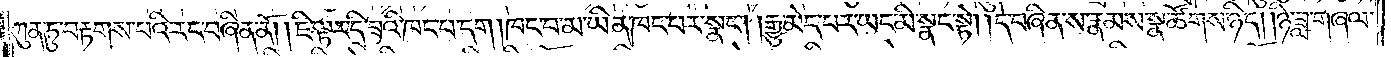ཀུན་ཏུ་བརྟགས་པའི་རང་བཞིན་ནོ། །ཇི་ལྟར་དྲི་ཟའི་ཁང་པ་དག །ཁང་བ་མ་ཡིན་ཁང་པར་སྣང་། །རྒྱུ་མེད་པར་ཡང་མི་སྣང་སྟེ། །དེ་བཞིན་ས་རྣམས་སྣ་ཚོགས་ཉིད། །ཉི་ཟླ་གཞལ་
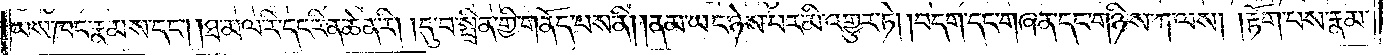ཡས་ཁང་རྣམས་དང་། །ཐ་མལ་རི་དང་རིན་ཆེན་རི། །དུ་བ་སྤྲིན་གྱི་གནོད་པས་ནི། །ནམ་ཡང་ཉེས་པར་མི་འགྱུར་ཏེ། །བདག་དང་གཞན་དང་གཉིས་ཀ་ལས། རྟོག་པས་རྣམ་
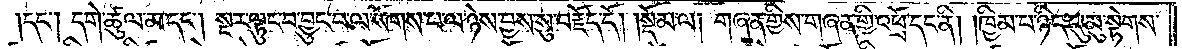དང༌། དགེ་ཚུལ་མ་དང༌། སྔར་ལྟུང་བ་བྱུང་བ་ལ་སོགས་པ་ལ་ཉེས་བྱས་སུ་བརྗོད་དོ།    །སྡོམ་ལ། གཞན་གྱིས་གཞན་གྱི་འཕྲོ་དང་ནི། །ཁྱིམ་པ་ཉིད་དུ་མུ་སྟེགས་
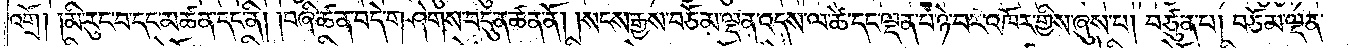འགྲོ། །མི་རུང་བ་དང་མཚན་དང་ནི། །བཞི་ཚན་བདེ་གཤེགས་བདུན་ཚན་ནོ། །སངས་རྒྱས་བཅོམ་ལྡན་འདས་ལ་ཚེ་དང་ལྡན་པ་ཉེ་བར་འཁོར་གྱིས་ཞུས་པ། བཙུན་པ། བཅོམ་ལྡན་
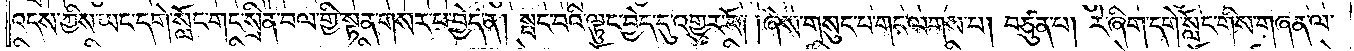འདས་ཀྱིས་ཡང་དགེ་སློང་གང་སྲིན་བལ་གྱི་སྟན་གསར་པ་བྱེད་ན། སྤང་པའི་ལྟུང་བྱེད་དུ་འགྱུར་རོ། །ཞེས་གསུང་པ་གང་ལགས་པ། བཙུན་པ། རེ་ཞིག་དགེ་སློང་གིས་གཞན་ལ་
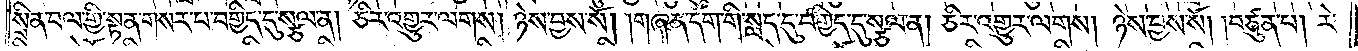སྲིན་བལ་གྱི་སྟན་གསར་པ་བགྱིད་དུ་སྩལ་ན། ཅིར་འགྱུར་ལགས། ཉེས་བྱས་སོ། །གཞན་དག་གི་སླད་དུ་བགྱིད་དུ་སྩལ་ན། ཅིར་འགྱུར་ལགས། ཉེས་བྱས་སོ། །བཙུན་པ། རེ་
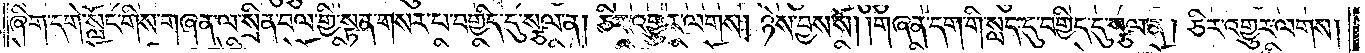ཞིག་དགེ་སློང་གིས་གཞན་ལ་སྲིན་བལ་གྱི་སྟན་གསར་པ་བགྱིད་དུ་སྩལ་ན། ཅིར་འགྱུར་ལགས། ཉེས་བྱས་སོ། །གཞན་དག་གི་སླད་དུ་བགྱིད་དུ་སྩལ་ན། ཅིར་འགྱུར་ལགས།
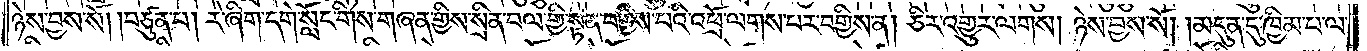ཉེས་བྱས་སོ། །བཙུན་པ། རེ་ཞིག་དགེ་སློང་གིས་གཞན་གྱིས་སྲིན་བལ་གྱི་སྟན་བགྱིས་པའི་འཕྲོ་ལགས་པར་བགྱིས་ན། ཅིར་འགྱུར་ལགས། ཉེས་བྱས་སོ། །མདུན་དུ་ཁྱིམ་པ་ལ་
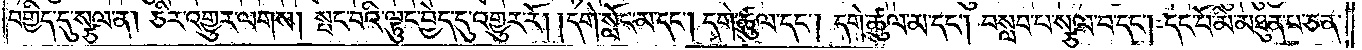བགྱིད་དུ་སྩལ་ན། ཅིར་འགྱུར་ལགས། སྤང་བའི་ལྟུང་བྱེད་དུ་འགྱུར་རོ། །དགེ་སློང་མ་དང༌། དགེ་ཚུལ་དང༌། དགེ་ཚུལ་མ་དང༌། བསླབ་པ་སྩལ་བ་དང༌། དང་པོ་མི་མཐུན་པ་ཅན་
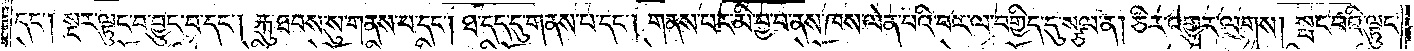དང༌། སྔར་ལྟུང་བ་བྱུང་བ་དང༌། རྐུ་ཐབས་སུ་གནས་པ་དང༌། ཐ་དད་དུ་གནས་པ་དང༌། གནས་པར་མི་བྱ་བ་ནས་ཁས་ལེན་པའི་བར་ལ་བགྱིད་དུ་སྩལ་ན། ཅིར་འགྱུར་ལགས། སྤང་བའི་ལྟུང་
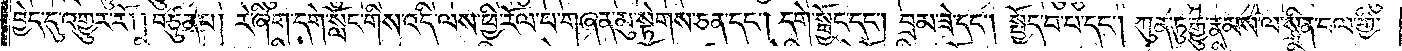བྱེད་དུ་འགྱུར་རོ། །བཙུན་པ། རེ་ཞིག་དགེ་སློང་གིས་འདི་ལས་ཕྱི་རོལ་པ་གཞན་མུ་སྟེགས་ཅན་དང༌། དགེ་སྦྱོང་དང༌། བྲམ་ཟེ་དང༌། སྤྱོད་པ་པ་དང༌། ཀུན་ཏུ་རྒྱུ་རྣམས་ལ་སྲིན་བལ་གྱི་
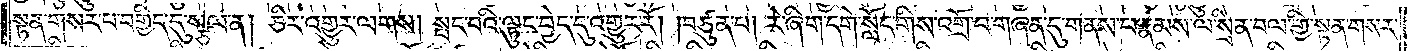སྟན་གསར་པ་བགྱིད་དུ་སྩལ་ན། ཅིར་འགྱུར་ལགས། སྤང་བའི་ལྟུང་བྱེད་དུ་འགྱུར་རོ། །བཙུན་པ། རེ་ཞིག་དགེ་སློང་གིས་འགྲོ་བ་གཞན་དུ་གནས་པ་རྣམས་ལ་སྲིན་བལ་གྱི་སྟན་གསར་
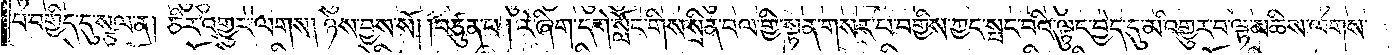པ་བགྱིད་དུ་སྩལ་ན། ཅིར་འགྱུར་ལགས། ཉེས་བྱས་སོ། །བཙུན་པ། རེ་ཞིག་དགེ་སློང་གིས་སྲིན་བལ་གྱི་སྟན་གསར་པ་བགྱིས་ཀྱང་སྤང་བའི་ལྟུང་བྱེད་དུ་མི་འགྱུར་བ་ལྟ་མཆིས་ལགས་
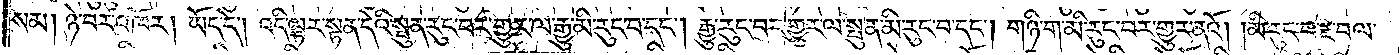སམ། ཉེ་བར་འཁོར། ཡོད་དེ། འདི་ལྟར་སྟན་དེའི་སྤུན་རུང་བར་གྱུར་ལ་རྒྱུ་མི་རུང་བ་དང༌། རྒྱུ་རུང་བར་གྱུར་ལ་སྤུན་མི་རུང་བ་དང༌། གཉི་ག་མི་རུང་བར་གྱུར་ནའོ། །མི་རུང་བ་རྔ་བལ་
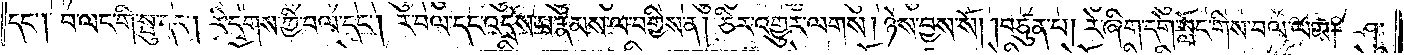དང༌། བ་ལང་གི་སྤུ་དང༌། རི་དྭགས་ཀྱི་བལ་དང༌། ར་བལ་དང་འདྲེས་པ་རྣམས་ལ་བགྱིས་ན། ཅིར་འགྱུར་ལགས། ཉེས་བྱས་སོ། །བཙུན་པ། རེ་ཞིག་དགེ་སློང་གིས་བལ་ལམ། ཤ་
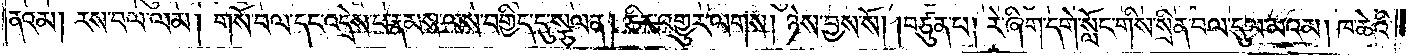ནའམ། རས་བལ་ལམ། གསོ་བལ་དང་འདྲེས་པ་རྣམས་ལས་བགྱིད་དུ་སྩལ་ན། ཅིར་འགྱུར་ལགས། ཉེས་བྱས་སོ། །བཙུན་པ། རེ་ཞིག་དགེ་སློང་གིས་སྲིན་བལ་དུལ་མའམ། ཁ་ཆེའི་
